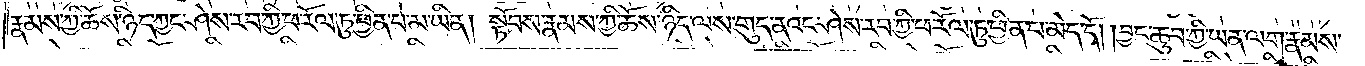རྣམས་ཀྱི་ཆོས་ཉིད་ཀྱང་ཤེས་རབ་ཀྱི་ཕ་རོལ་ཏུ་ཕྱིན་པ་མ་ཡིན། སྟོབས་རྣམས་ཀྱི་ཆོས་ཉིད་ལས་གུད་ནའང་ཤེས་རབ་ཀྱི་ཕ་རོལ་ཏུ་ཕྱིན་པ་མེད་དོ། །བྱང་ཆུབ་ཀྱི་ཡན་ལག་རྣམས་
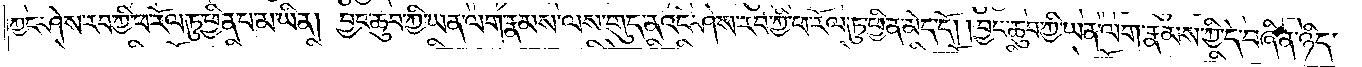ཀྱང་ཤེས་རབ་ཀྱི་ཕ་རོལ་ཏུ་ཕྱིན་པ་མ་ཡིན། བྱང་ཆུབ་ཀྱི་ཡན་ལག་རྣམས་ལས་གུད་ནའང་ཤེས་རབ་ཀྱི་ཕ་རོལ་ཏུ་ཕྱིན་པ་མེད་དོ། །བྱང་ཆུབ་ཀྱི་ཡན་ལག་རྣམས་ཀྱི་དེ་བཞིན་ཉིད་
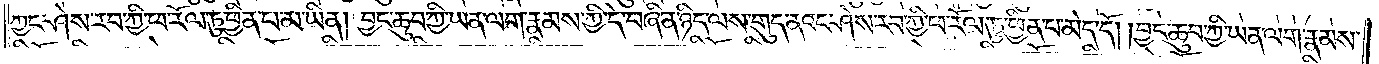ཀྱང་ཤེས་རབ་ཀྱི་ཕ་རོལ་ཏུ་ཕྱིན་པ་མ་ཡིན། བྱང་ཆུབ་ཀྱི་ཡན་ལག་རྣམས་ཀྱི་དེ་བཞིན་ཉིད་ལས་གུད་ནའང་ཤེས་རབ་ཀྱི་ཕ་རོལ་ཏུ་ཕྱིན་པ་མེད་དོ། །བྱང་ཆུབ་ཀྱི་ཡན་ལག་རྣམས་
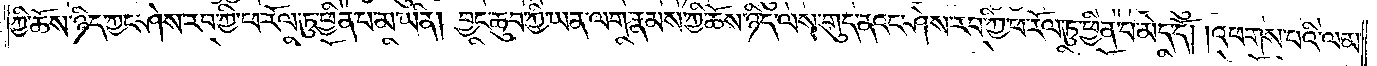ཀྱི་ཆོས་ཉིད་ཀྱང་ཤེས་རབ་ཀྱི་ཕ་རོལ་ཏུ་ཕྱིན་པ་མ་ཡིན། བྱང་ཆུབ་ཀྱི་ཡན་ལག་རྣམས་ཀྱི་ཆོས་ཉིད་ལས་གུད་ནའང་ཤེས་རབ་ཀྱི་ཕ་རོལ་ཏུ་ཕྱིན་པ་མེད་དོ། །འཕགས་པའི་ལམ་
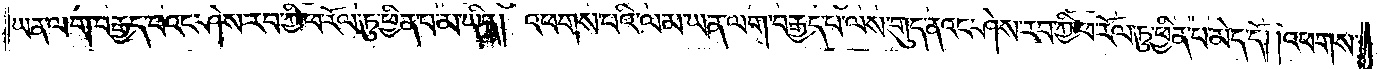ཡན་ལག་བརྒྱད་པའང་ཤེས་རབ་ཀྱི་ཕ་རོལ་ཏུ་ཕྱིན་པ་མ་ཡིན། འཕགས་པའི་ལམ་ཡན་ལག་བརྒྱད་པ་ལས་གུད་ནའང་ཤེས་རབ་ཀྱི་ཕ་རོལ་ཏུ་ཕྱིན་པ་མེད་དོ། །འཕགས་
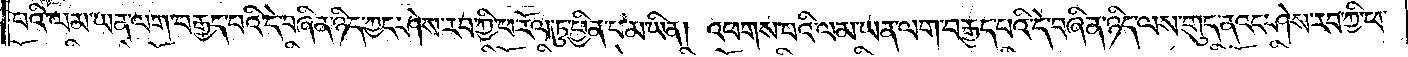པའི་ལམ་ཡན་ལག་བརྒྱད་པའི་དེ་བཞིན་ཉིད་ཀྱང་ཤེས་རབ་ཀྱི་ཕ་རོལ་ཏུ་ཕྱིན་པ་མ་ཡིན། འཕགས་པའི་ལམ་ཡན་ལག་བརྒྱད་པའི་དེ་བཞིན་ཉིད་ལས་གུད་ནའང་ཤེས་རབ་ཀྱི་ཕ་
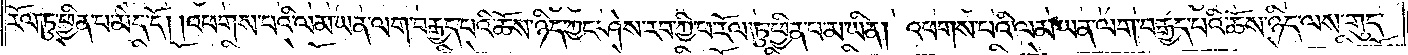རོལ་ཏུ་ཕྱིན་པ་མེད་དོ། །འཕགས་པའི་ལམ་ཡན་ལག་བརྒྱད་པའི་ཆོས་ཉིད་ཀྱང་ཤེས་རབ་ཀྱི་ཕ་རོལ་ཏུ་ཕྱིན་པ་མ་ཡིན། འཕགས་པའི་ལམ་ཡན་ལག་བརྒྱད་པའི་ཆོས་ཉིད་ལས་གུད་
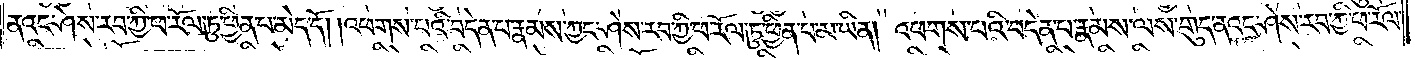ནའང་ཤེས་རབ་ཀྱི་ཕ་རོལ་ཏུ་ཕྱིན་པ་མེད་དོ། །འཕགས་པའི་བདེན་པ་རྣམས་ཀྱང་ཤེས་རབ་ཀྱི་ཕ་རོལ་ཏུ་ཕྱིན་པ་མ་ཡིན། འཕགས་པའི་བདེན་པ་རྣམས་ལས་གུད་ནའང་ཤེས་རབ་ཀྱི་ཕ་རོལ་
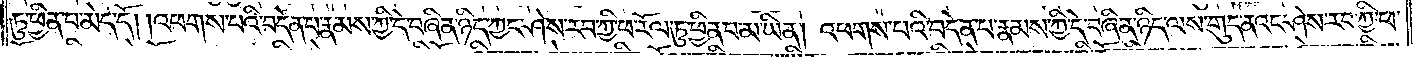ཏུ་ཕྱིན་པ་མེད་དོ། །འཕགས་པའི་བདེན་པ་རྣམས་ཀྱི་དེ་བཞིན་ཉིད་ཀྱང་ཤེས་རབ་ཀྱི་ཕ་རོལ་ཏུ་ཕྱིན་པ་མ་ཡིན། འཕགས་པའི་བདེན་པ་རྣམས་ཀྱི་དེ་བཞིན་ཉིད་ལས་གུད་ནའང་ཤེས་རབ་ཀྱི་ཕ་
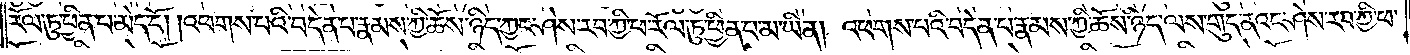རོལ་ཏུ་ཕྱིན་པ་མེད་དོ། །འཕགས་པའི་བདེན་པ་རྣམས་ཀྱི་ཆོས་ཉིད་ཀྱང་ཤེས་རབ་ཀྱི་ཕ་རོལ་ཏུ་ཕྱིན་པ་མ་ཡིན། འཕགས་པའི་བདེན་པ་རྣམས་ཀྱི་ཆོས་ཉིད་ལས་གུད་ནའང་ཤེས་རབ་ཀྱི་ཕ་
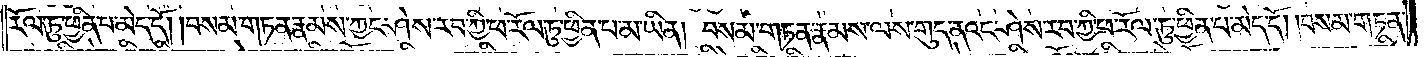རོལ་ཏུ་ཕྱིན་པ་མེད་དོ། །བསམ་གཏན་རྣམས་ཀྱང་ཤེས་རབ་ཀྱི་ཕ་རོལ་ཏུ་ཕྱིན་པ་མ་ཡིན། བསམ་གཏན་རྣམས་ལས་གུད་ནའང་ཤེས་རབ་ཀྱི་ཕ་རོལ་ཏུ་ཕྱིན་པ་མེད་དོ། །བསམ་གཏན་
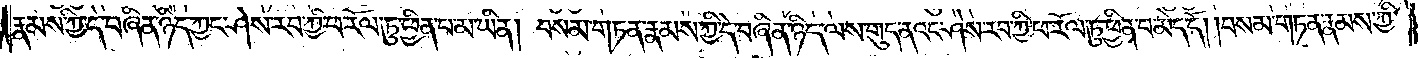རྣམས་ཀྱི་དེ་བཞིན་ཉིད་ཀྱང་ཤེས་རབ་ཀྱི་ཕ་རོལ་ཏུ་ཕྱིན་པ་མ་ཡིན། བསམ་གཏན་རྣམས་ཀྱི་དེ་བཞིན་ཉིད་ལས་གུད་ནའང་ཤེས་རབ་ཀྱི་ཕ་རོལ་ཏུ་ཕྱིན་པ་མེད་དོ། །བསམ་གཏན་རྣམས་ཀྱི་
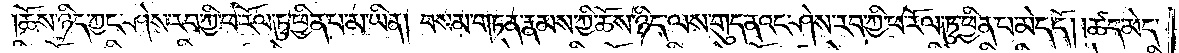ཆོས་ཉིད་ཀྱང་ཤེས་རབ་ཀྱི་ཕ་རོལ་ཏུ་ཕྱིན་པ་མ་ཡིན། བསམ་གཏན་རྣམས་ཀྱི་ཆོས་ཉིད་ལས་གུད་ནའང་ཤེས་རབ་ཀྱི་ཕ་རོལ་ཏུ་ཕྱིན་པ་མེད་དོ། །ཚད་མེད་
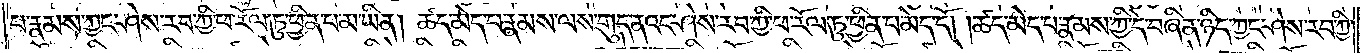པ་རྣམས་ཀྱང་ཤེས་རབ་ཀྱི་ཕ་རོལ་ཏུ་ཕྱིན་པ་མ་ཡིན། ཚད་མེད་པ་རྣམས་ལས་གུད་ནའང་ཤེས་རབ་ཀྱི་ཕ་རོལ་ཏུ་ཕྱིན་པ་མེད་དོ། །ཚད་མེད་པ་རྣམས་ཀྱི་དེ་བཞིན་ཉིད་ཀྱང་ཤེས་རབ་ཀྱི་
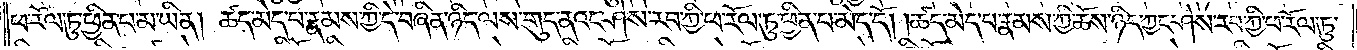ཕ་རོལ་ཏུ་ཕྱིན་པ་མ་ཡིན། ཚད་མེད་པ་རྣམས་ཀྱི་དེ་བཞིན་ཉིད་ལས་གུད་ནའང་ཤེས་རབ་ཀྱི་ཕ་རོལ་ཏུ་ཕྱིན་པ་མེད་དོ། །ཚད་མེད་པ་རྣམས་ཀྱི་ཆོས་ཉིད་ཀྱང་ཤེས་རབ་ཀྱི་ཕ་རོལ་ཏུ་
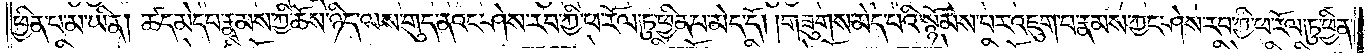ཕྱིན་པ་མ་ཡིན། ཚད་མེད་པ་རྣམས་ཀྱི་ཆོས་ཉིད་ལས་གུད་ནའང་ཤེས་རབ་ཀྱི་ཕ་རོལ་ཏུ་ཕྱིན་པ་མེད་དོ། །གཟུགས་མེད་པའི་སྙོམས་པར་འཇུག་པ་རྣམས་ཀྱང་ཤེས་རབ་ཀྱི་ཕ་རོལ་ཏུ་ཕྱིན་
